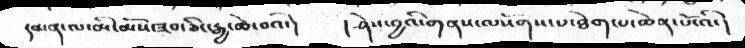དམན་ལ་མི་མོས་ཟབ་ཅིང་རྒྱ་ཆེ་བའི་།  །ཤེས་བྱའི་གནས་ལསོགས་པ་ཐེག་པ་ཆེན་པོ་འི་།
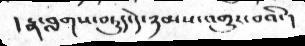། རྣ་བླགས་བཏུད་དེ་ཉམས་འགྱུར་བའི་།
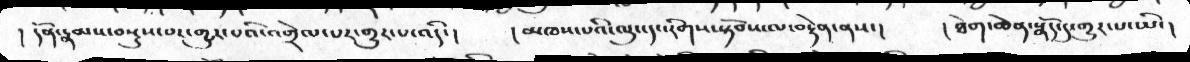། དོན་རྣམས་བསྡུས་བར་གྱུར་པའི་འགྲེལ་པར་གྱུར་པ་འདི་།  །མཁས་པའི་ལུང་དང་རིགས་སྟོབས་ལ་བརྟེན་ནས་།  །ཐེག་ཆེན་སྣོད་དུ་གྱུར་པ་ཡི་།
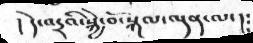། དེ་འདྲའི་སྐྱེ་བོ་སྐལ་ལྡན་ལ་།
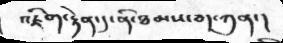འཇིག་རྟེན་དུ་ནི་ཐམས་ཅད་ཀུན་།
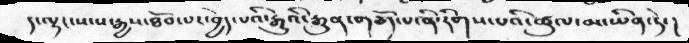ད་ལྟར་སངས་རྒྱས་ཐོབ་པར་བྱེད་པའི་རྒྱུའི་རྒྱུན་གཅོད་པ་ནི་རིགས་པའི་ཚུལ་མ་ཡིན་ཏེ་།
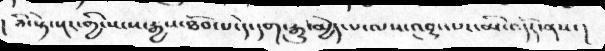། ཉི་སྟེ་སྔར་གྱི་སངས་རྒྱས་ཐོབ་པ་དེ་དག་རྒྱུ་མྱེད་པ་ལས་འབྱུང་པར་མི་འདོད་ནས་།
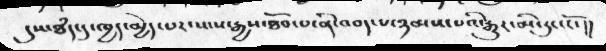དུས་ཐདཾ་དུ་ཁྱད་མྱེད་པར་སངས་རྒྱས་ཐོབ་པ་ནི་འབད་པ་ཉམས་པའི་རྒྱུར་མི་རུང་ངོ་།།
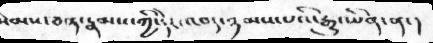སེམས་ཅན་རྣམས་ཀྱི་དེར་འབད་ཉམས་པའི་རྒྱུ་ཡིན་ན་།
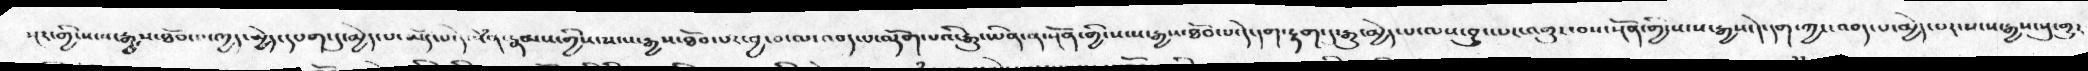སྔར་གྱི་སངས་རྒྱས་ཐོབ་པ་ཁྱད་མྱེད་དཔག་དུ་མྱེད་པ་ཡོད་པ་དེ་སེཾན་རྣམས་གྱིས་སངས་རྒྱས་ཐོབ་པར་བྱ་བ་ལ་འབད་པ་ལྷོག་པའི་རྒྱུ་ཡིན་ན་སྔོན་གྱི་སངས་རྒྱས་ཐོབ་པ་དེ་དག་རྟག་དུ་རྒྱུ་མྱེད་པ་ལས་བྱུང་པར་འགྱུར་བས་སྔོན་གྱི་སངས་རྒྱས་དེ་དག་ཀྱང་འབད་པ་མྱེད་པར་སངས་རྒྱས་སུ་གྱུར་
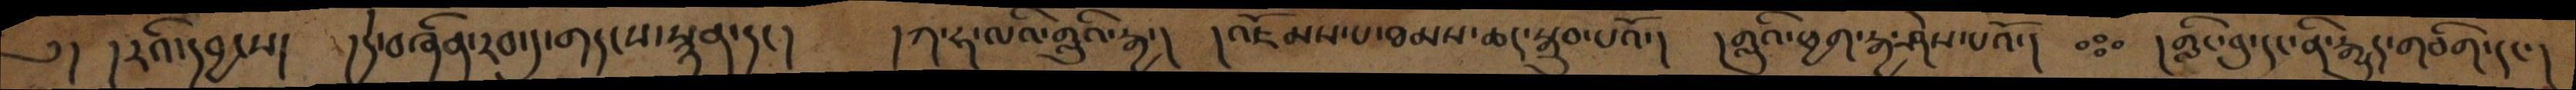༄།  །རའི་དབྱངས།  །དེ་བཞིན་རབ་དུ་གདངས་སྙན་དང།  །ཀ་ཧ་ལའི་གླུའི་རྒྱ་།  །འཇོམས་པ་ཐམས་ཆད་སྒྲུབ་པའོ་།  །གླུའི་ཕྱག་རྒྱ་ཤེས་པའོ་།  །གླིང་བུ་དང་ནི་རྒྱུད་གཅིག་དང་།
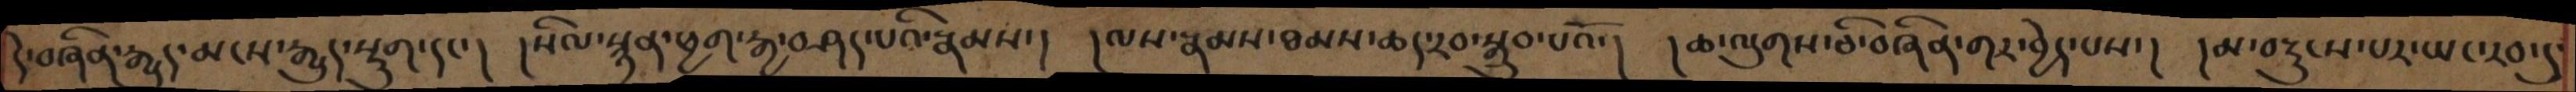དེ་བཞིན་རྒྱུད་མངས་རྒྱུད་སྡུག་དང་།  །སིལ་སྙན་ཕྱག་རྒྱ་བཤད་པའི་རྣམས་།  །ལས་རྣམས་ཐམས་ཆད་རབ་སྒྲུབ་པའོ་།  །ཆ་ལུགས་ཅི་བཞིན་གར་བྱེད་པས་།  །མ་བརྡུངས་པར་ཡང་རབ་དུ་
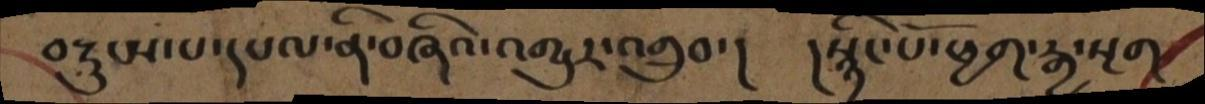བསྡུངས་པ་དཔལ་ནི་བཞིའ་འགྱུར་འགྲུབ་།     །སྙིང་པོ་ཕྱག་རྒྱ་སྔག
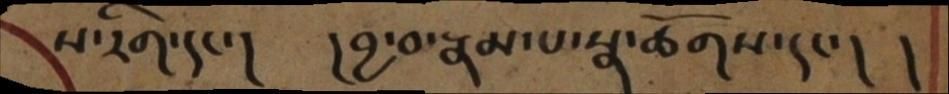ས་རིག་དང་།   །བྱ་བ་རྣམ་པ་སྣ་ཚོགས་དང་།   །
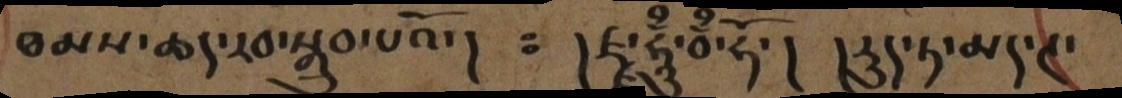ཐམས་ཆད་རབ་སྒྲུབ་པའོ་།  ཿ   །ཛྫ་ཧཱུྃ་བྃ་ཧོ་།  ། རུད་ཏ་མད་ཊ་
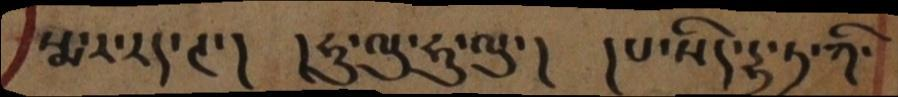སྨ་ར་རད་ཊ་།  །ཧུ་ལུ་ཧུ་ལུ་།  །པ་སིད་དྷ་ཏ་ཀི་
